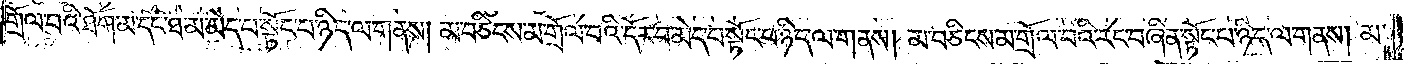གྲོལ་བའི་ཐོག་མ་དང་ཐ་མ་མེད་པ་སྟོང་པ་ཉིད་ལ་གནས། མ་བཅིངས་མ་གྲོལ་བའི་དོར་བ་མེད་པ་སྟོང་པ་ཉིད་ལ་གནས། མ་བཅིངས་མ་གྲོལ་བའི་རང་བཞིན་སྟོང་པ་ཉིད་ལ་གནས། མ་
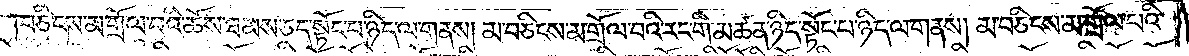བཅིངས་མ་གྲོལ་བའི་ཆོས་ཐམས་ཅད་སྟོང་པ་ཉིད་ལ་གནས། མ་བཅིངས་མ་གྲོལ་བའི་རང་གི་མཚན་ཉིད་སྟོང་པ་ཉིད་ལ་གནས། མ་བཅིངས་མ་གྲོལ་བའི་
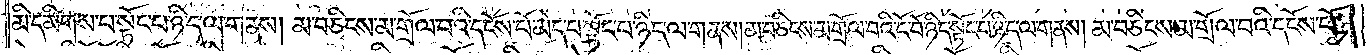མི་དམིགས་པ་སྟོང་པ་ཉིད་ལ་གནས། མ་བཅིངས་མ་གྲོལ་བའི་དངོ་ས་པོ་མེད་པ་སྟོང་པ་ཉིད་ལ་གནས། མ་བཅིངས་མ་གྲོལ་བའི་ངོ་བོ་ཉིད་སྟོང་པ་ཉིད་ལ་གནས། མ་བཅིངས་མ་གྲོལ་བའི་དངོས་པོ་
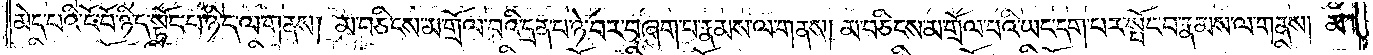མེད་པའི་ངོ་བོ་ཉིད་སྟོང་པ་ཉིད་ལ་གནས། མ་བཅིངས་མ་གྲོལ་བའི་དྲན་པ་ཉེ་བར་བཞག་པ་རྣམས་ལ་གནས། མ་བཅིངས་མ་གྲོལ་བའི་ཡང་དག་པར་སྤོང་བ་རྣམས་ལ་གནས། མ་
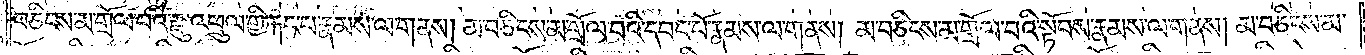བཅིངས་མ་གྲོལ་བའི་རྫུ་འཕྲུལ་གྱི་རྐང་པ་རྣམས་ལ་གནས། མ་བཅིངས་མ་གྲོལ་བའི་དབང་པོ་རྣམས་ལ་གནས། མ་བཅིངས་མ་གྲོལ་བའི་སྟོབས་རྣམས་ལ་གནས། མ་བཅིངས་མ་
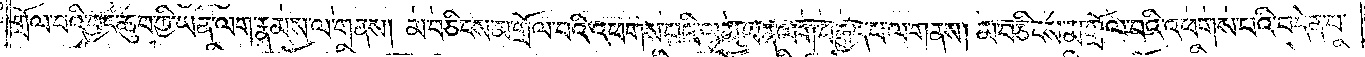གྲོལ་བའི་བྱང་ཆུབ་ཀྱི་ཡན་ལག་རྣམས་ལ་གནས། མ་བཅིངས་མ་གྲོལ་བའི་འཕགས་པའི་ལམ་ཡན་ལག་བརྒྱད་པ་ལ་གནས། མ་བཅིངས་མ་གྲོལ་བའི་འཕགས་པའི་བདེན་པ་
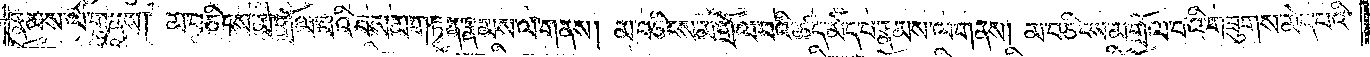རྣམས་ལ་གནས། མ་བཅིངས་མ་གྲོལ་བའི་བསམ་གཏན་རྣམས་ལ་གནས། མ་བཅིངས་མ་གྲོལ་བའི་ཚད་མེད་པ་རྣམས་ལ་གནས། མ་བཅིངས་མ་གྲོལ་བའི་གཟུགས་མེད་པའི་
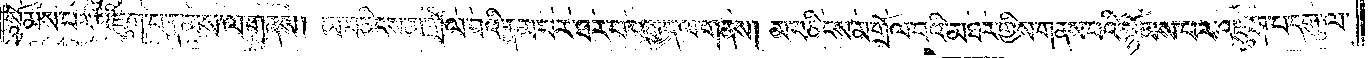སྙོམས་པར་འཇུག་པ་རྣམས་ལ་གནས། མ་བཅིངས་མ་གྲོལ་བའི་རྣམ་པར་ཐར་པ་བརྒྱད་ལ་གནས། མ་བཅིངས་མ་གྲོལ་བའི་མཐར་གྱིས་གནས་པའི་སྙོམས་པར་འཇུག་པ་དགུ་ལ་
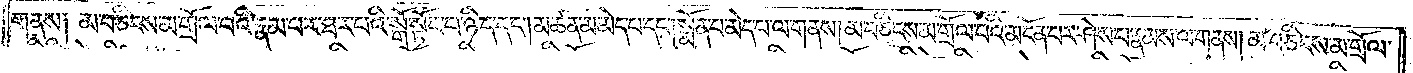གནས། མ་བཅིངས་མ་གྲོལ་བའི་རྣམ་པར་ཐར་པའི་སྒོ་སྟོང་པ་ཉིད་དང༌། མཚན་མ་མེད་པ་དང༌། སྨོན་པ་མེད་པ་ལ་གནས། མ་བཅིངས་མ་གྲོལ་བའི་མངོན་པར་ཤེས་པ་རྣམས་ལ་གནས། མ་བཅིངས་མ་གྲོལ་
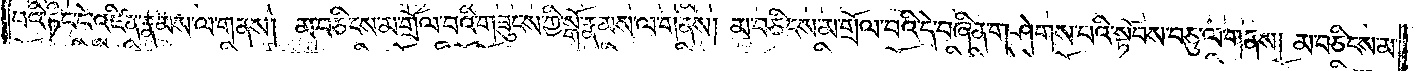བའི་ཏིང་ངེ་འཛིན་རྣམས་ལ་གནས། མ་བཅིངས་མ་གྲོལ་བའི་གཟུགས་ཀྱི་སྒོ་རྣམས་ལ་གནས། མ་བཅིངས་མ་གྲོལ་བའི་དེ་བཞིན་གཤེགས་པའི་སྟོབས་བཅུ་ལ་གནས། མ་བཅིངས་མ་
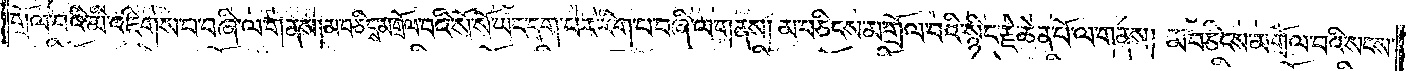གྲོལ་བའི་མི་འཇིགས་པ་བཞི་ལ་གནས། མ་བཅིངས་མ་གྲོལ་བའི་སོ་སོ་ཡང་དག་པར་རིག་པ་བཞི་ལ་གནས། མ་བཅིངས་མ་གྲོལ་བའི་སྙིང་རྗེ་ཆེན་པོ་ལ་གནས། མ་བཅིངས་མ་གྲོལ་བའི་སངས་
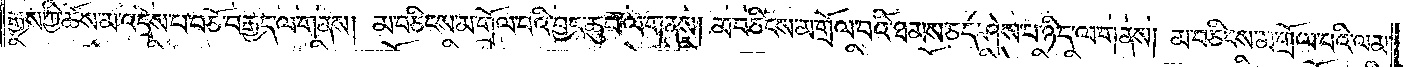རྒྱས་ཀྱི་ཆོས་མ་འདྲེས་པ་བཅོ་བརྒྱད་ལ་གནས། མ་བཅིངས་མ་གྲོལ་བའི་བྱང་ཆུབ་ལ་གནས། མ་བཅིངས་མ་གྲོལ་བའི་ཐམས་ཅད་ཤེས་པ་ཉིད་ལ་གནས། མ་བཅིངས་མ་གྲོལ་བའི་ལམ་
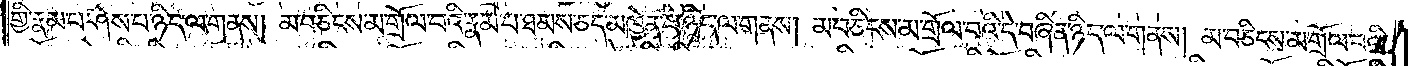གྱི་རྣམ་པ་ཤེས་པ་ཉིད་ལ་གནས། མ་བཅིངས་མ་གྲོལ་བའི་རྣམ་པ་ཐམས་ཅད་མཁྱེན་པ་ཉིད་ལ་གནས། མ་བཅིངས་མ་གྲོལ་བའི་དེ་བཞིན་ཉིད་ལ་གནས། མ་བཅིངས་མ་གྲོལ་བའི་
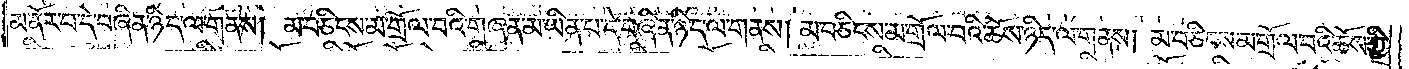མ་ནོར་བ་དེ་བཞིན་ཉིད་ལ་གནས། མ་བཅིངས་མ་གྲོལ་བའི་གཞན་མ་ཡིན་པ་དེ་བཞིན་ཉིད་ལ་གནས། མ་བཅིངས་མ་གྲོལ་བའི་ཆོས་ཉིད་ལ་གནས། མ་བཅིངས་མ་གྲོལ་བའི་ཆོས་ཀྱི་
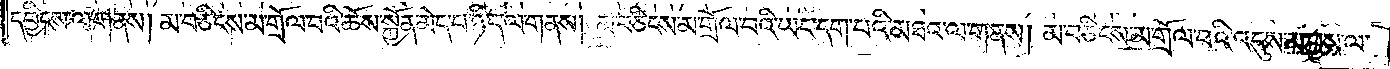དབྱིངས་ལ་གནས། མ་བཅིངས་མ་གྲོལ་བའི་ཆོས་སྐྱོན་མེད་པ་ཉིད་ལ་གནས། མ་བཅིངས་མ་གྲོལ་བའི་ཡང་དག་པའི་མཐའ་ལ་གནས། མ་བཅིངས་མ་གྲོལ་བའི་འདུས་མ་བྱས་ལ་
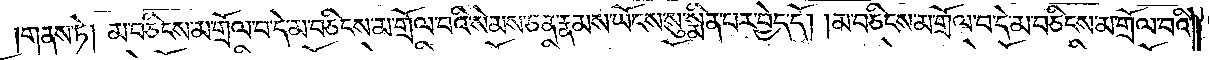གནས་ཏེ། མ་བཅིངས་མ་གྲོལ་བ་དེ་མ་བཅིངས་མ་གྲོལ་བའི་སེམས་ཅན་རྣམས་ཡོངས་སུ་སྨིན་པར་བྱེད་དོ། །མ་བཅིངས་མ་གྲོལ་བ་དེ་མ་བཅིངས་མ་གྲོལ་བའི་
